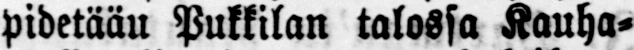pidetääu Pukkilan talossa Kauha-
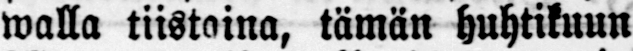walla tiistaina, tämän huhtikuun
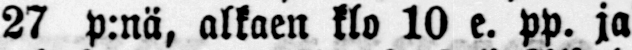27 p:nä, alkaen klo 10 e. pp. ja
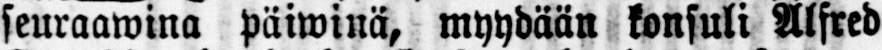seuraawina Päiwinä, myydään konsuli Alfred
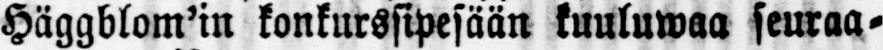Häggblom'in konkurssipesään kuuluwaa seuraa-
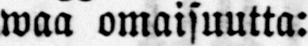waa omaisuutta:
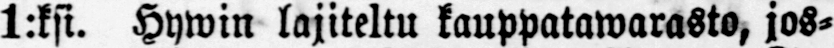1:ksi. Hywin lajiteltu kauppatawarasto, jos-
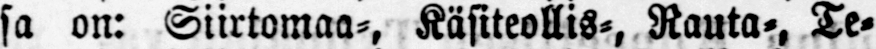sa on: Siirtomaa-, Käsiteollis-, Rauta-, Te-
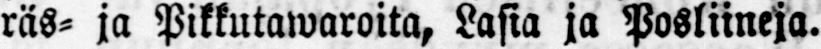räs- ja Pikkutawaroita, Lasia ja Posliineja.
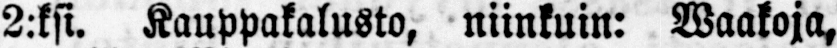2:ksi. Kauppakalusto, niinkuin: Waakoja,
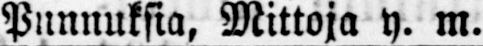Punnuksia, Mittoja y. m.
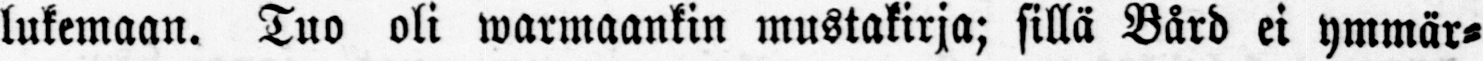lukemaan. Tuo oli warmaankin mustakirja; sillä Bård ei ymmär-
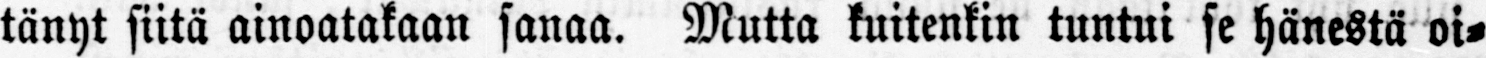tänyt siitä ainoatakaan sanaa. Mutta kuitenkin tuntui se hänestä oi-
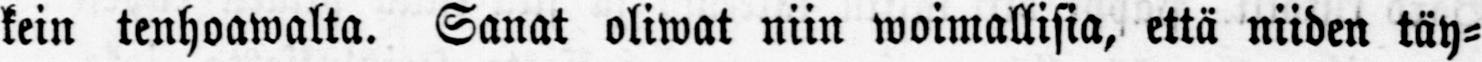kein tenhoawalta. Sanat oliwat niin woimallisia, että niiden täy-
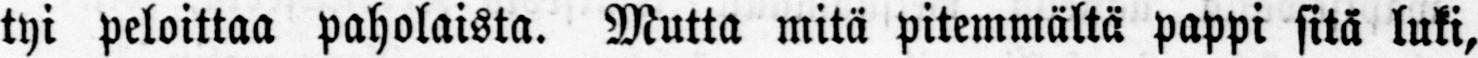tyi peloittaa paholaista. Mutta mitä pitemmällä pappi sitä luki,
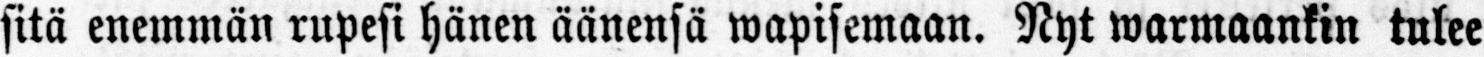sitä enemmän rupesi hänen äänensä wapisemaan. Nyt warmaankin tulee
